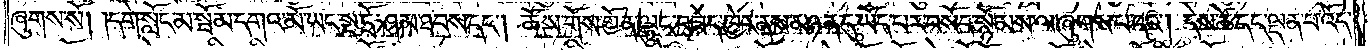ཞུགས་སོ། །དགེ་སློང་མ་སྦོམ་དགའ་མོ་ཡང་སྔ་དྲོ་ཤམ་ཐབས་དང༌། ཆོས་གོས་གྱོན་ལྷུང་བཟེད་ཁྱེར་ནས་མཉན་དུ་ཡོད་པར་བསོད་སྙོམས་ལ་ཞུགས་པ་དང༌། དེས་ཚེ་དང་ལྡན་པ་འོད་
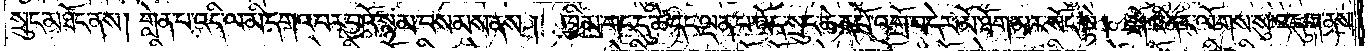སྲུང་མཐོང་ནས། གླེན་པ་འདི་ལ་མི་དགའ་བར་བྱའོ་སྙམ་བསམས་ནས། ཁྱིམ་གང་དུ་ཚེ་དང་ལྡན་པ་འོད་སྲུང་ཆེན་པོ་འགྲོ་བ་དེར་མོ་ཐོག་མར་སོང་སྟེ། སྒོའི་ནང་ལོགས་སུ་འདུག་ནས་
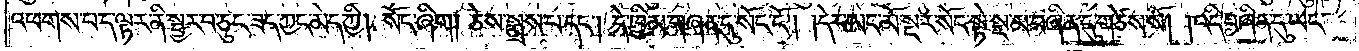འཕགས་པ་ད་ལྟར་ནི་སྦྱར་བ་ཅུང་ཟད་ཀྱང་མེད་ཀྱི། སོང་ཞིག། ཅེས་སྨྲས་པ་དང༌། དེ་ཁྱིམ་གཞན་དུ་སོང་ངོ༌། །དེར་ཡང་མོ་སྔར་སོང་སྟེ་སྔ་མ་བཞིན་དུ་གཙེས་སོ། །འདི་བཞིན་དུ་ཡང་
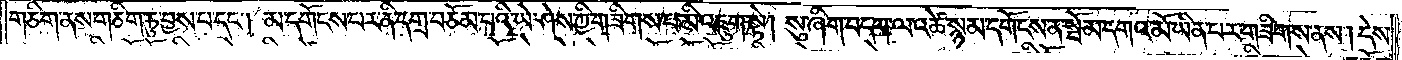གཅིག་ནས་གཅིག་ཏུ་བྱས་པ་དང༌། མ་དགོངས་པར་ནི་དགྲ་བཅོམ་པའི་ཡེ་ཤེས་ཀྱི་གཟིགས་པ་མི་འཇུག་སྟེ། སུ་ཞིག་བདག་ལ་འཚེ་སྙམ་དགོངས་ན་སྤོམ་དགའ་མོ་ཡིན་པར་གཟིགས་ནས། དེས་
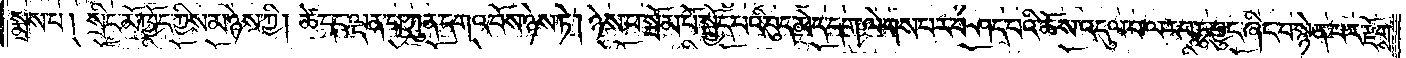སྨྲས་པ། སྲིང་མོ་ཁྱོད་ཀྱིས་མ་ཉེས་ཀྱི། ཚེ་དང་ལྡན་པ་ཀུན་དགའ་བོས་ཉེས་ཏེ། ཉེས་པ་སྦོམ་པོ་སྤྱོད་པའི་བུད་མེད་དག་ལེགས་པར་བཤད་པའི་ཆོས་འདུལ་བ་ལ་རབ་ཏུ་བྱུང་ཞིང་བསྙེན་པར་རྫོགས་
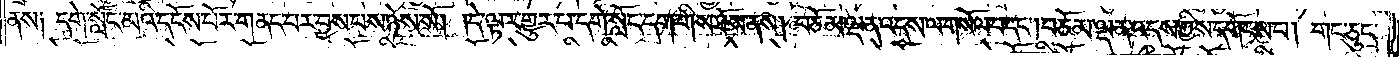ནས༑ དགེ་སློང་མའི་དངོས་པོར་གནང་བར་བྱས་པས་ཉེས་སོ། །དེ་ལྟར་གྱུར་པ་དགེ་སློང་དག་གིས་ཐོས་ནས། བཅོམ་ལྡན་འདས་ལ་གསོལ་བ་དང༌། བཅོམ་ལྡན་འདས་ཀྱིས་དགོངས་པ། གང་ཅུང་
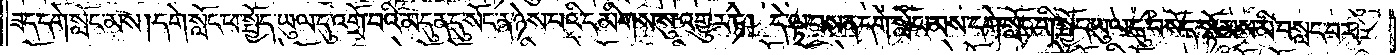ཟད་དགེ་སློང་མས། དགེ་སློང་ཕ་སྤྱོད་ཡུལ་དུ་འགྲོ་བའི་མདུན་དུ་སོང་ན་ཉེས་པའི་དམིགས་སུ་འགྱུར་ཏེ། དེ་ལྟ་བས་ན་དགེ་སློང་མས་དགེ་སློང་གི་སྤྱོད་ཡུལ་དུ་བསོད་སྙོམས་མི་བསླང་བར་
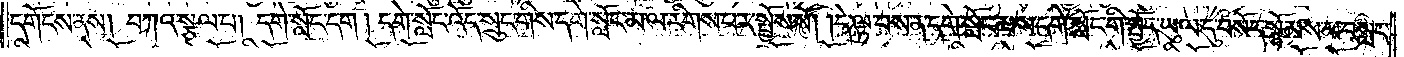དགོངས་ནས། བཀའ་སྩལ་པ། དགེ་སློང་དག །དགེ་སློང་འོད་སྲུང་གིས་དགེ་སློང་མ་ལ་རིགས་པར་སྤྱོས་སོ། །དེ་ལྟ་བས་ན་དགེ་སློང་མས་དགེ་སློང་གི་སྤྱོད་ཡུལ་དུ་བསོད་སྙོམས་མ་བསླང་
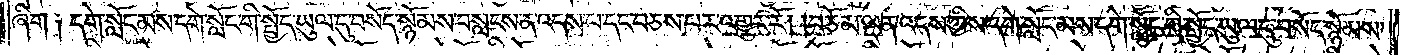ཞིག་༑དགེ་སློང་མས་དགེ་སློང་གི་སྤྱོད་ཡུལ་དུ་བསོད་སྙོམས་བསླངས་ན་འདས་པ་དང་བཅས་པར་འགྱུར་རོ། །བཅོམ་ལྡན་འདས་ཀྱིས་དགེ་སློང་མས་དགེ་སློང་གི་སྤྱོད་ཡུལ་དུ་བསོད་སྙོམས་
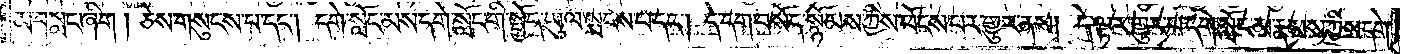མ་བསླང་ཞིག །ཅེས་གསུངས་པ་དང༌། དགེ་སློང་མས་དགེ་སློང་གི་སྤྱོད་ཡུལ་སྤངས་པ་དང༌། དེ་དག་བསོད་སྙོམས་ཀྱིས་ཕོངས་པར་གྱུར་ནས། དེ་ལྟར་གྱུར་པ་དགེ་སློང་མ་རྣམས་ཀྱིས་དགེ་
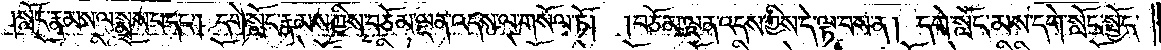སློང་རྣམས་ལ་སྨྲས་པ་དང༌། དགེ་སློང་རྣམས་ཀྱིས་བཅོམ་ལྡན་འདས་ལ་གསོལ་ཏོ། །བཅོམ་ལྡན་འདས་ཀྱིས་དེ་ལྟ་བས་ན། དགེ་སློང་མས་དགེ་སློང་སྤྱོད་
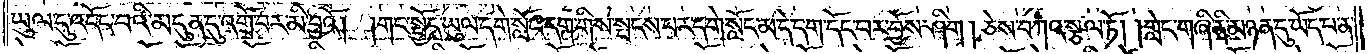ཡུལ་དུ་འདོད་བའི་མདུན་དུ་འགྲོ་བར་མི་བྱའོ། །གང་སྤྱོད་ཡུལ་དགེ་སློང་དག་གིས་སྤངས་པར་དགེ་སློང་མ་དེ་དག་དོང་བར་བྱོས་ཤིག །ཅེས་བཀའ་སྩལ་ཏོ། །གླེང་གཞི་ནི་མཉན་དུ་ཡོད་པ་ན་
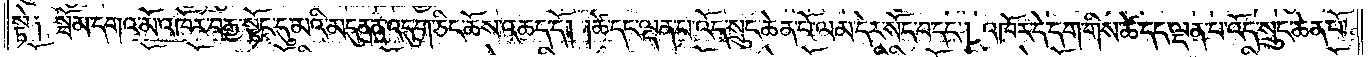སྟེ༑ སྦོམ་དགའ་མོ་འཁོར་བརྒྱ་སྟོང་དུ་མའི་མདུན་ན་འདུག་ཅིང་ཆོས་འཆད་དོ། །ཚེ་དང་ལྡན་པ་འོད་སྲུང་ཆེན་པོ་ལམ་དེར་སོང་བ་དང༌། འཁོར་དེ་དག་གིས་ཚེ་དང་ལྡན་པ་འོད་སྲུང་ཆེན་པོ་
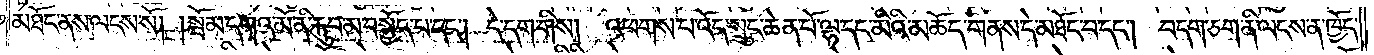མཐོང་ནས་ལངས་སོ། །སྦོམ་དགའ་མོ་ནི་རྐུབ་མ་བསྐྱོད་པ་དང༌། དེ་དག་གིས། འཕགས་པ་འོད་སྲུང་ཆེན་པོ་ལྷ་དང་མིའི་མཆོད་གནས་དེ་མཐོང་བ་དང༌། བདག་ཅག་ནི་ལངས་ན་ཁྱོད་
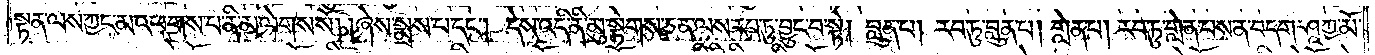སྟན་ལས་ཀྱང་མ་འཕགས་པ་ནི་མ་ལེགས་སོ། །ཞེས་སྨྲས་པ་དང༌། དེས་འདི་ནི་མུ་སྟེགས་ཅན་ལས་རབ་ཏུ་བྱུང་བ་སྟེ། བླུན་པ། རབ་ཏུ་བླུན་པ། གླེན་པ། རབ་ཏུ་གླེན་པས་ན་བདག་ཤཱཀྱ་མོ་
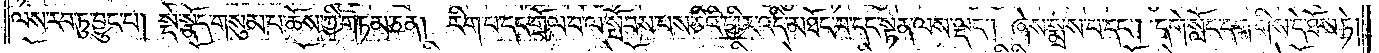ལས་རབ་ཏུ་བྱུང་བ། སྡེ་སྣོད་གསུམ་པ་ཆོས་ཀྱི་གཏམ་ཅན། རིག་པ་དང་གྲོལ་བ་ལ་སྤོབས་པས་ཅིའི་ཕྱིར་འདི་མཐོང་བ་དང་སྟན་ལས་ལྡང༌། ཞེས་སྨྲས་པ་དང༌། དགེ་སློང་དག་གིས་དེ་ཐོས་ཏེ།
